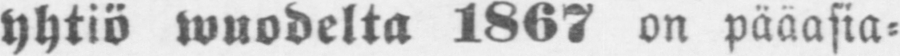yhtiö wuodelta 1867 on pääasia-
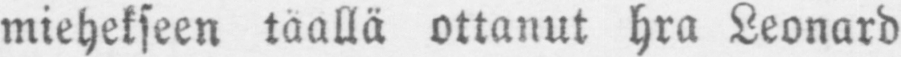miehekseen täallä ottanut hra Leonard
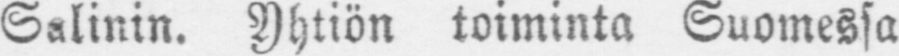Salinin. Yhtiön toiminta Suomessa
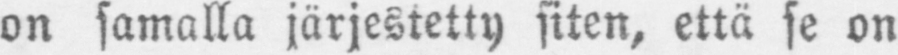on samalla järjestetty siten, että se on
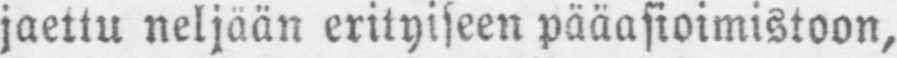jaettu neljään erityiseen pääasioimistoon,
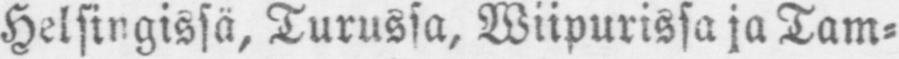Helsingissä, Turussa, Wiipurissa ja Tam-
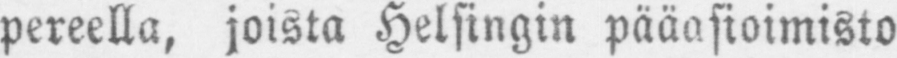pereella, joista Helsingin pääasioimisto
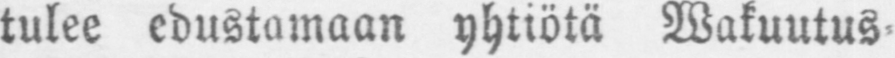tulee edustamaan yhtiötä Wakuutus-
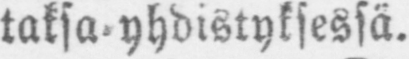taksa-yhdistyksessä.
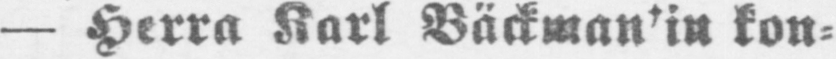— Herra Karl Bäckman'in kon-
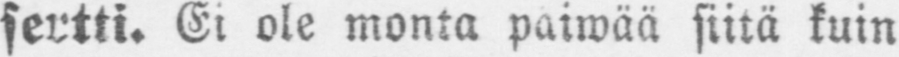sertti. Ei ole monta paiwää siitä kuin
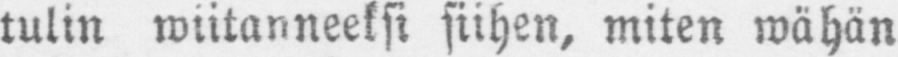tulin wiitanneeksi siihen, miten wähän
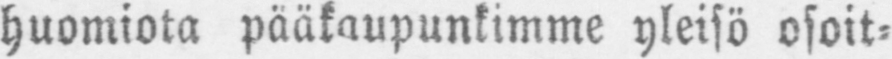huomiota pääkaupunkimme yleisö osoit-
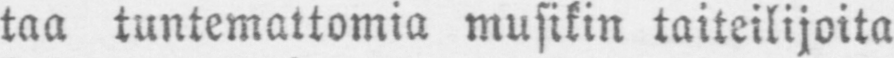taa tuntemattomia musikin taiteilijoita
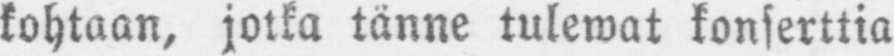kohtaan, jotka tänne tulewat konserttia
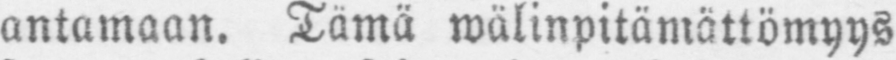antamaan. Tämä wälinpitämättömyys
